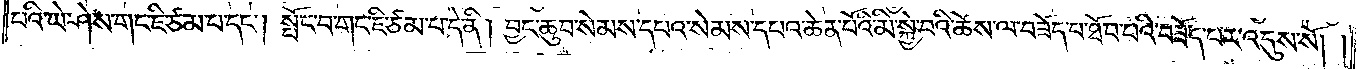པའི་ཡེ་ཤེས་གང་ཇི་ཙམ་པ་དང༌། སྤོང་བ་གང་ཇི་ཙམ་པ་དེ་ནི། བྱང་ཆུབ་སེམས་དཔའ་སེམས་དཔའ་ཆེན་པོའི་མི་སྐྱེ་བའི་ཆོས་ལ་བཟོད་པ་ཐོབ་པའི་བཟོད་པར་འདུས་སོ། །
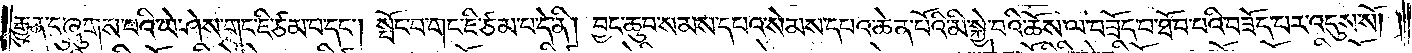རྒྱུན་དུ་ཞུགས་པའི་ཡེ་ཤེས་གང་ཇི་ཙམ་པ་དང༌། སྤོང་བ་གང་ཇི་ཙམ་པ་དེ་ནི། བྱང་ཆུབ་སེམས་དཔའ་སེམས་དཔའ་ཆེན་པོའི་མི་སྐྱེ་བའི་ཆོས་ལ་བཟོད་པ་ཐོབ་པའི་བཟོད་པར་འདུས་སོ། །
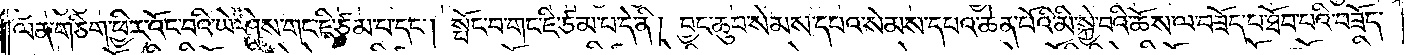ལན་གཅིག་ཕྱིར་འོང་བའི་ཡེ་ཤེས་གང་ཇི་ཙམ་པ་དང༌། སྤོང་བ་གང་ཇི་ཙམ་པ་དེ་ནི། བྱང་ཆུབ་སེམས་དཔའ་སེམས་དཔའ་ཆེན་པོའི་མི་སྐྱེ་བའི་ཆོས་ལ་བཟོད་པ་ཐོབ་པའི་བཟོད་
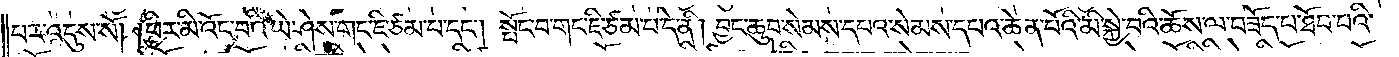པར་འདུས་སོ། །ཕྱིར་མི་འོང་བའི་ཡེ་ཤེས་གང་ཇི་ཙམ་པ་དང༌། སྤོང་བ་གང་ཇི་ཙམ་པ་དེ་ནི། བྱང་ཆུབ་སེམས་དཔའ་སེམས་དཔའ་ཆེན་པོའི་མི་སྐྱེ་བའི་ཆོས་ལ་བཟོད་པ་ཐོབ་པའི་
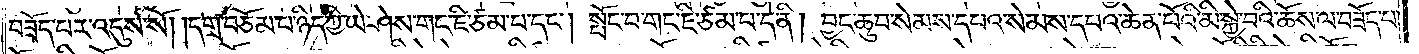བཟོད་པར་འདུས་སོ། །དགྲ་བཅོམ་པ་ཉིད་ཀྱི་ཡེ་ཤེས་གང་ཇི་ཙམ་པ་དང༌། སྤོང་བ་གང་ཇི་ཙམ་པ་དེ་ནི། བྱང་ཆུབ་སེམས་དཔའ་སེམས་དཔའ་ཆེན་པོའི་མི་སྐྱེ་བའི་ཆོས་ལ་བཟོད་པ་
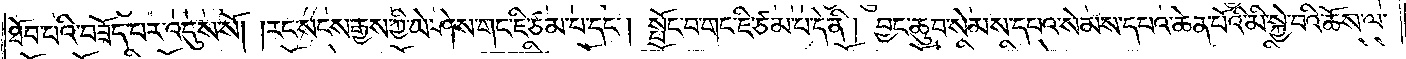ཐོབ་པའི་བཟོད་པར་འདུས་སོ། །རང་སངས་རྒྱས་ཀྱི་ཡེ་ཤེས་གང་ཇི་ཙམ་པ་དང༌། སྤོང་བ་གང་ཇི་ཙམ་པ་དེ་ནི། བྱང་ཆུབ་སེམས་དཔའ་སེམས་དཔའ་ཆེན་པོའི་མི་སྐྱེ་བའི་ཆོས་ལ་
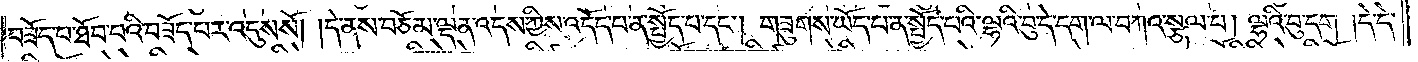བཟོད་པ་ཐོབ་པའི་བཟོད་པར་འདུས་སོ། །དེ་ནས་བཅོམ་ལྡན་འདས་ཀྱིས་འདོད་པ་ན་སྤྱོད་པ་དང༌། གཟུགས་ཡོད་པ་ན་སྤྱོད་པའི་ལྷའི་བུ་དེ་དག་ལ་བཀའ་སྩལ་པ། ལྷའི་བུ་དག །དེ་དེ་
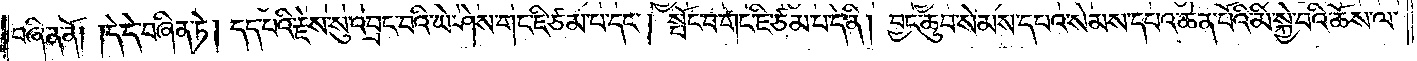བཞིན་ནོ། །དེ་དེ་བཞིན་ཏེ། དད་པའི་རྗེས་སུ་འབྲང་བའི་ཡེ་ཤེས་གང་ཇི་ཙམ་པ་དང༌། སྤོང་བ་གང་ཇི་ཙམ་པ་དེ་ནི། བྱང་ཆུབ་སེམས་དཔའ་སེམས་དཔའ་ཆེན་པོའི་མི་སྐྱེ་བའི་ཆོས་ལ་
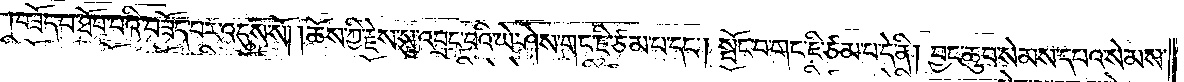བཟོད་པ་ཐོབ་པའི་བཟོད་པར་འདུས་སོ། །ཆོས་ཀྱི་རྗེས་སུ་འབྲང་བའི་ཡེ་ཤེས་གང་ཇི་ཙམ་པ་དང༌། སྤོང་བ་གང་ཇི་ཙམ་པ་དེ་ནི། བྱང་ཆུབ་སེམས་དཔའ་སེམས་
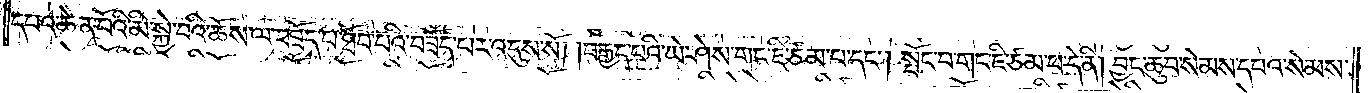དཔའ་ཆེན་པོའི་མི་སྐྱེ་བའི་ཆོས་ལ་བཟོད་པ་ཐོབ་པའི་བཟོད་པར་འདུས་སོ། །བརྒྱད་པའི་ཡེ་ཤེས་གང་ཇི་ཙམ་པ་དང༌། སྤོང་བ་གང་ཇི་ཙམ་པ་དེ་ནི། བྱང་ཆུབ་སེམས་དཔའ་སེམས་
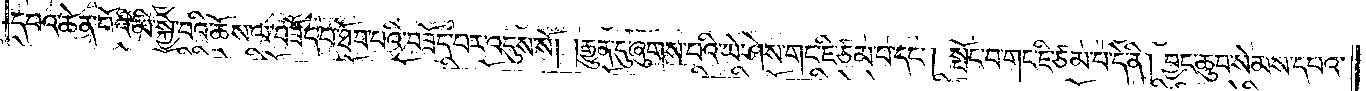དཔའ་ཆེན་པོའི་མི་སྐྱེ་བའི་ཆོས་ལ་བཟོད་པ་ཐོབ་པའི་བཟོད་པར་འདུས་སོ། །རྒྱུན་དུ་ཞུགས་པའི་ཡེ་ཤེས་གང་ཇི་ཙམ་པ་དང༌། སྤོང་བ་གང་ཇི་ཙམ་པ་དེ་ནི། བྱང་ཆུབ་སེམས་དཔའ་
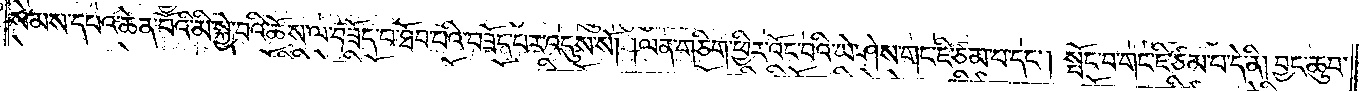སེམས་དཔའ་ཆེན་པོའི་མི་སྐྱེ་བའི་ཆོས་ལ་བཟོད་པ་ཐོབ་པའི་བཟོད་པར་འདུས་སོ། །ལན་གཅིག་ཕྱིར་འོང་བའི་ཡེ་ཤེས་གང་ཇི་ཙམ་པ་དང༌། སྤོང་བ་གང་ཇི་ཙམ་པ་དེ་ནི། བྱང་ཆུབ་
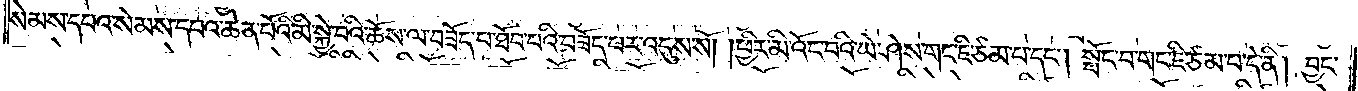སེམས་དཔའ་སེམས་དཔའ་ཆེན་པོའི་མི་སྐྱེ་བའི་ཆོས་ལ་བཟོད་པ་ཐོབ་པའི་བཟོད་པར་འདུས་སོ། །ཕྱིར་མི་འོང་བའི་ཡེ་ཤེས་གང་ཇི་ཙམ་པ་དང༌། སྤོང་བ་གང་ཇི་ཙམ་པ་དེ་ནི། བྱང་
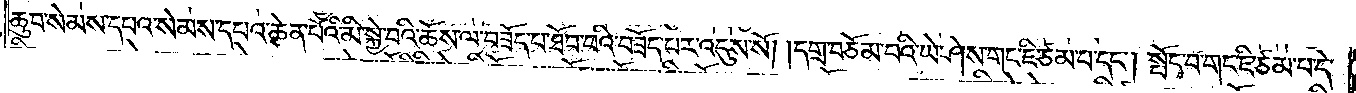ཆུབ་སེམས་དཔའ་སེམས་དཔའ་ཆེན་པོའི་མི་སྐྱེ་བའི་ཆོས་ལ་བཟོད་པ་ཐོབ་པའི་བཟོད་པར་འདུས་སོ། །དགྲ་བཅོམ་པའི་ཡེ་ཤེས་གང་ཇི་ཙམ་པ་དང༌། སྤོང་བ་གང་ཇི་ཙམ་པ་དེ་
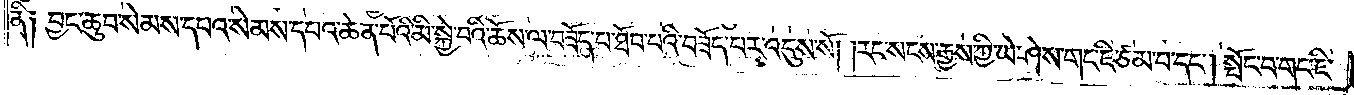ནི། བྱང་ཆུབ་སེམས་དཔའ་སེམས་དཔའ་ཆེན་པོའི་མི་སྐྱེ་བའི་ཆོས་ལ་བཟོད་པ་ཐོབ་པའི་བཟོད་པར་འདུས་སོ། །རང་སངས་རྒྱས་ཀྱི་ཡེ་ཤེས་གང་ཇི་ཙམ་པ་དང༌། སྤོང་བ་གང་ཇི་
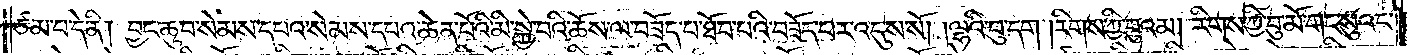ཙམ་པ་དེ་ནི། བྱང་ཆུབ་སེམས་དཔའ་སེམས་དཔའ་ཆེན་པོའི་མི་སྐྱེ་བའི་ཆོས་ལ་བཟོད་པ་ཐོབ་པའི་བཟོད་པར་འདུས་སོ། །ལྷའི་བུ་དག། རིགས་ཀྱི་བུའམ། རིགས་ཀྱི་བུ་མོ་གང་སུའང་
